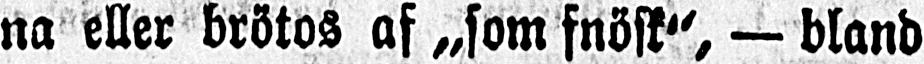na eller brötos af „som fnösk", — bland
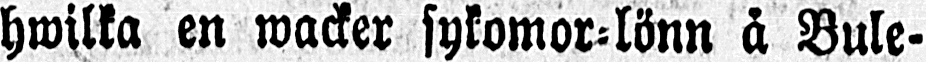hwilka en wacker sykomor-lönn å Bule-
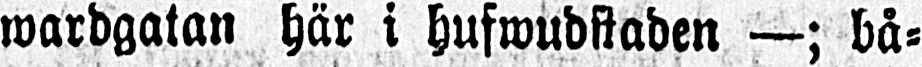wardgatan här i hufwudstaden —; bå-
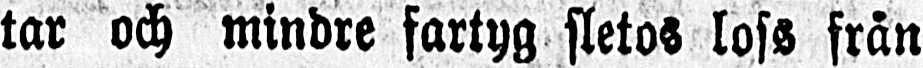tar och mindre fartyg sletos loss från
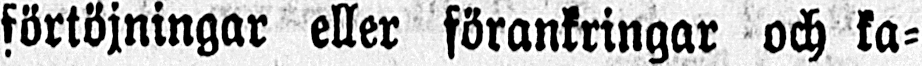förtöjningar eller förankringar och ka-
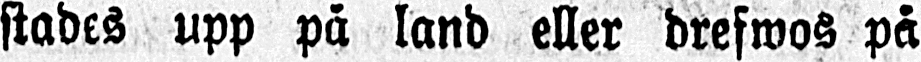stades upp på land eller drefwos på
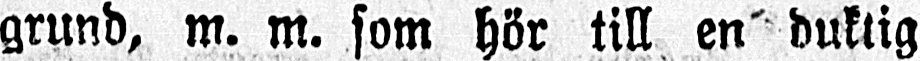grund, m. m. som hör till en duktig
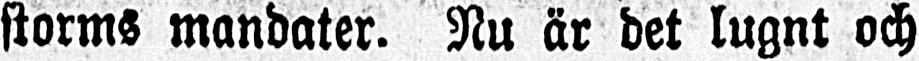storms mandater. Nu är det lugnt och
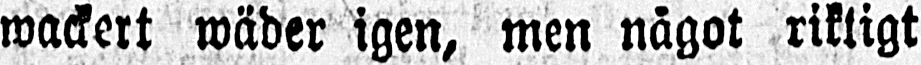wackert wäder igen, men något riktigt
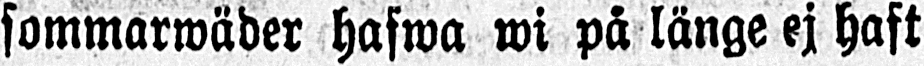sommarwäder hafwa wi på länge ej haft
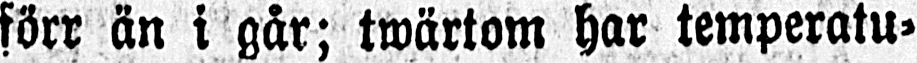förr än i går; twärtom har temperatu-
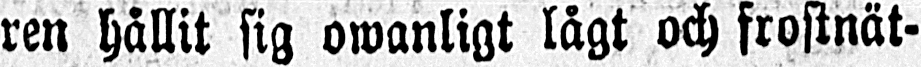ren hållit sig owanligt lågt och frostnät-
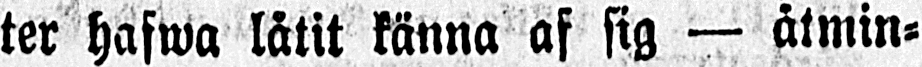ter hafwa låtit känna af sig — åtmin-
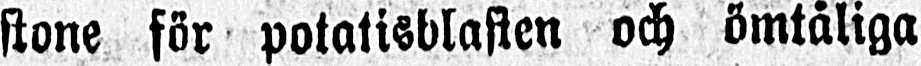stone för potatisblasten och ömtåliga
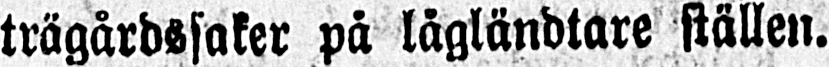trägårdssaker på lågländtare ställen.
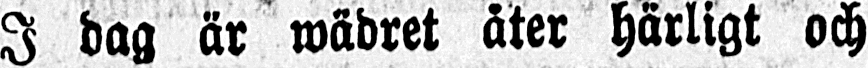I dag är wädret åter härligt och
